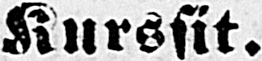Kurssit.
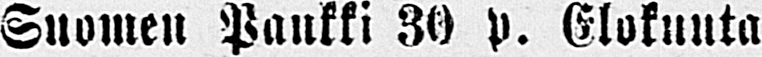Suomen Pankki 30 p. Elokuuta
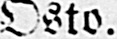Osto.
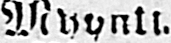Myynti.
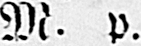M. p.
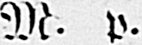M. p.
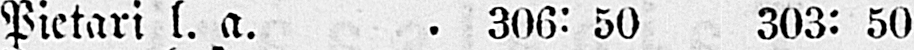Pietari l. a. . 306: 50 303: 50
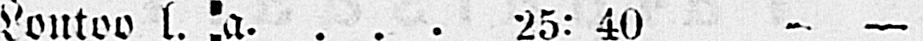Lontoo l. a. . . . 25: 40 — —
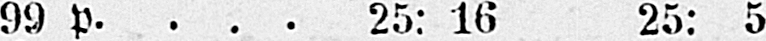„ 99 p. . . . 25: 16 25: 5
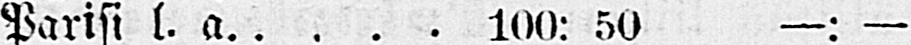Parisi l. a.. . . . 100: 50 —: —
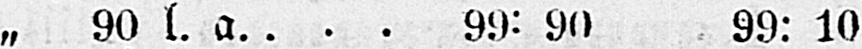„ 90 l. a.. . . 99: 90 99: 10
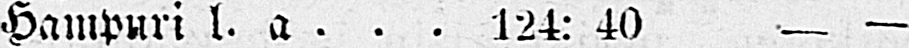Hampuri l. a . . . 124: 40 — —
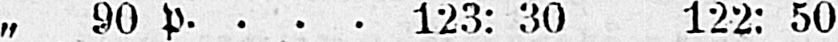„ 90 p. . . . 123: 30 122: 50
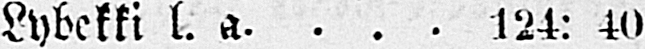Lybekki l. a. . . . 124: 40 — —
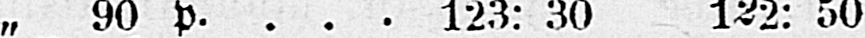„ 90 p. . . . 123: 30 122: 50
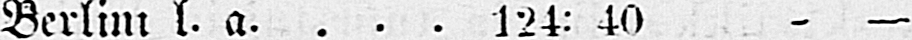Berlin: l. a. . . . 124: 40 — —
